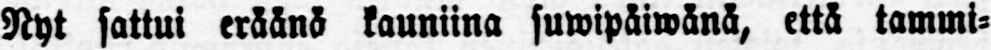Nyt sattui eräänä kauniina suwipäiwänä, että tammi-
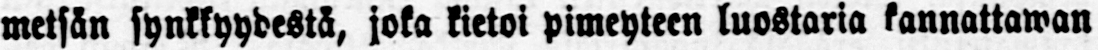metsän synkkyydestä, joka kietoi pimeyteen luostaria kannattawan
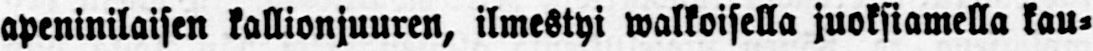apeninilaisen kallionjuuren, ilmestyi walkoisella juoksiamella kau-
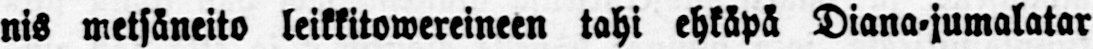nis metsäneito leikkitowereineen tahi ehkäpä Diana-jumalatar
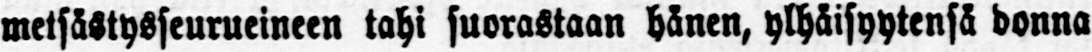metsästysseurueineen tahi suorastaan hänen, ylhäisyytensä donna
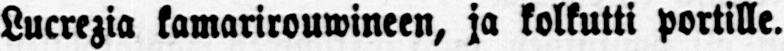Lucrezia kamarirouwineen, ja kolkutti portille.
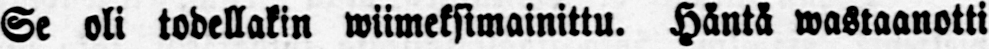Se oli todellakin wiimeksimainittu. Häntä wastaanotti
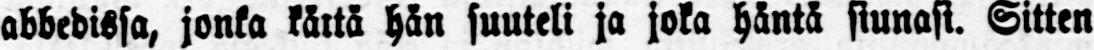abbedissa, jonka kättä hän suuteli ja joka häntä siunasi. Sitten
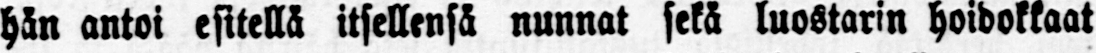hän antoi esitellä itsellensä nunnat sekä luostarin hoidokkaat
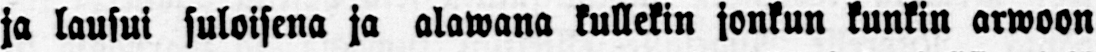ja lausui suloisena ja alawana kullekin jonkun kunkin arwoon
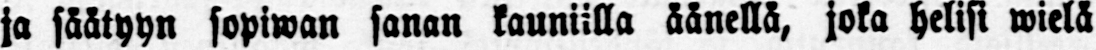ja säätyyn sopiwan sanan kauniilla äänellä, joka helisi wielä
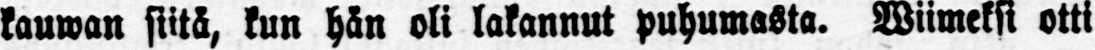kauwan siitä, kun hän oli lakannut puhumasta. Wiimeksi otti
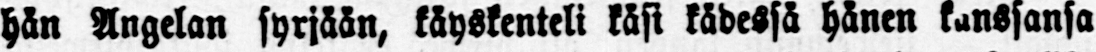hän Angelan syrjään, käyskenteli käsi kädessä hänen kanssansa
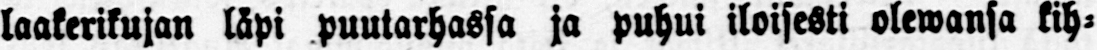laakerikujan läpi puutarhassa ja puhui iloisesti olewansa kih-
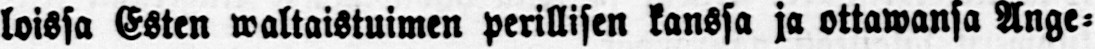loissa Esten waltaistuimen perillisen kanssa ja ottawansa Ange-
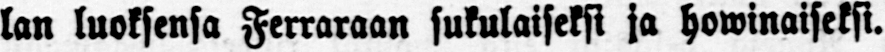lan luoksensa Ferraraan sukulaiseksi ja howinaiseksi.
